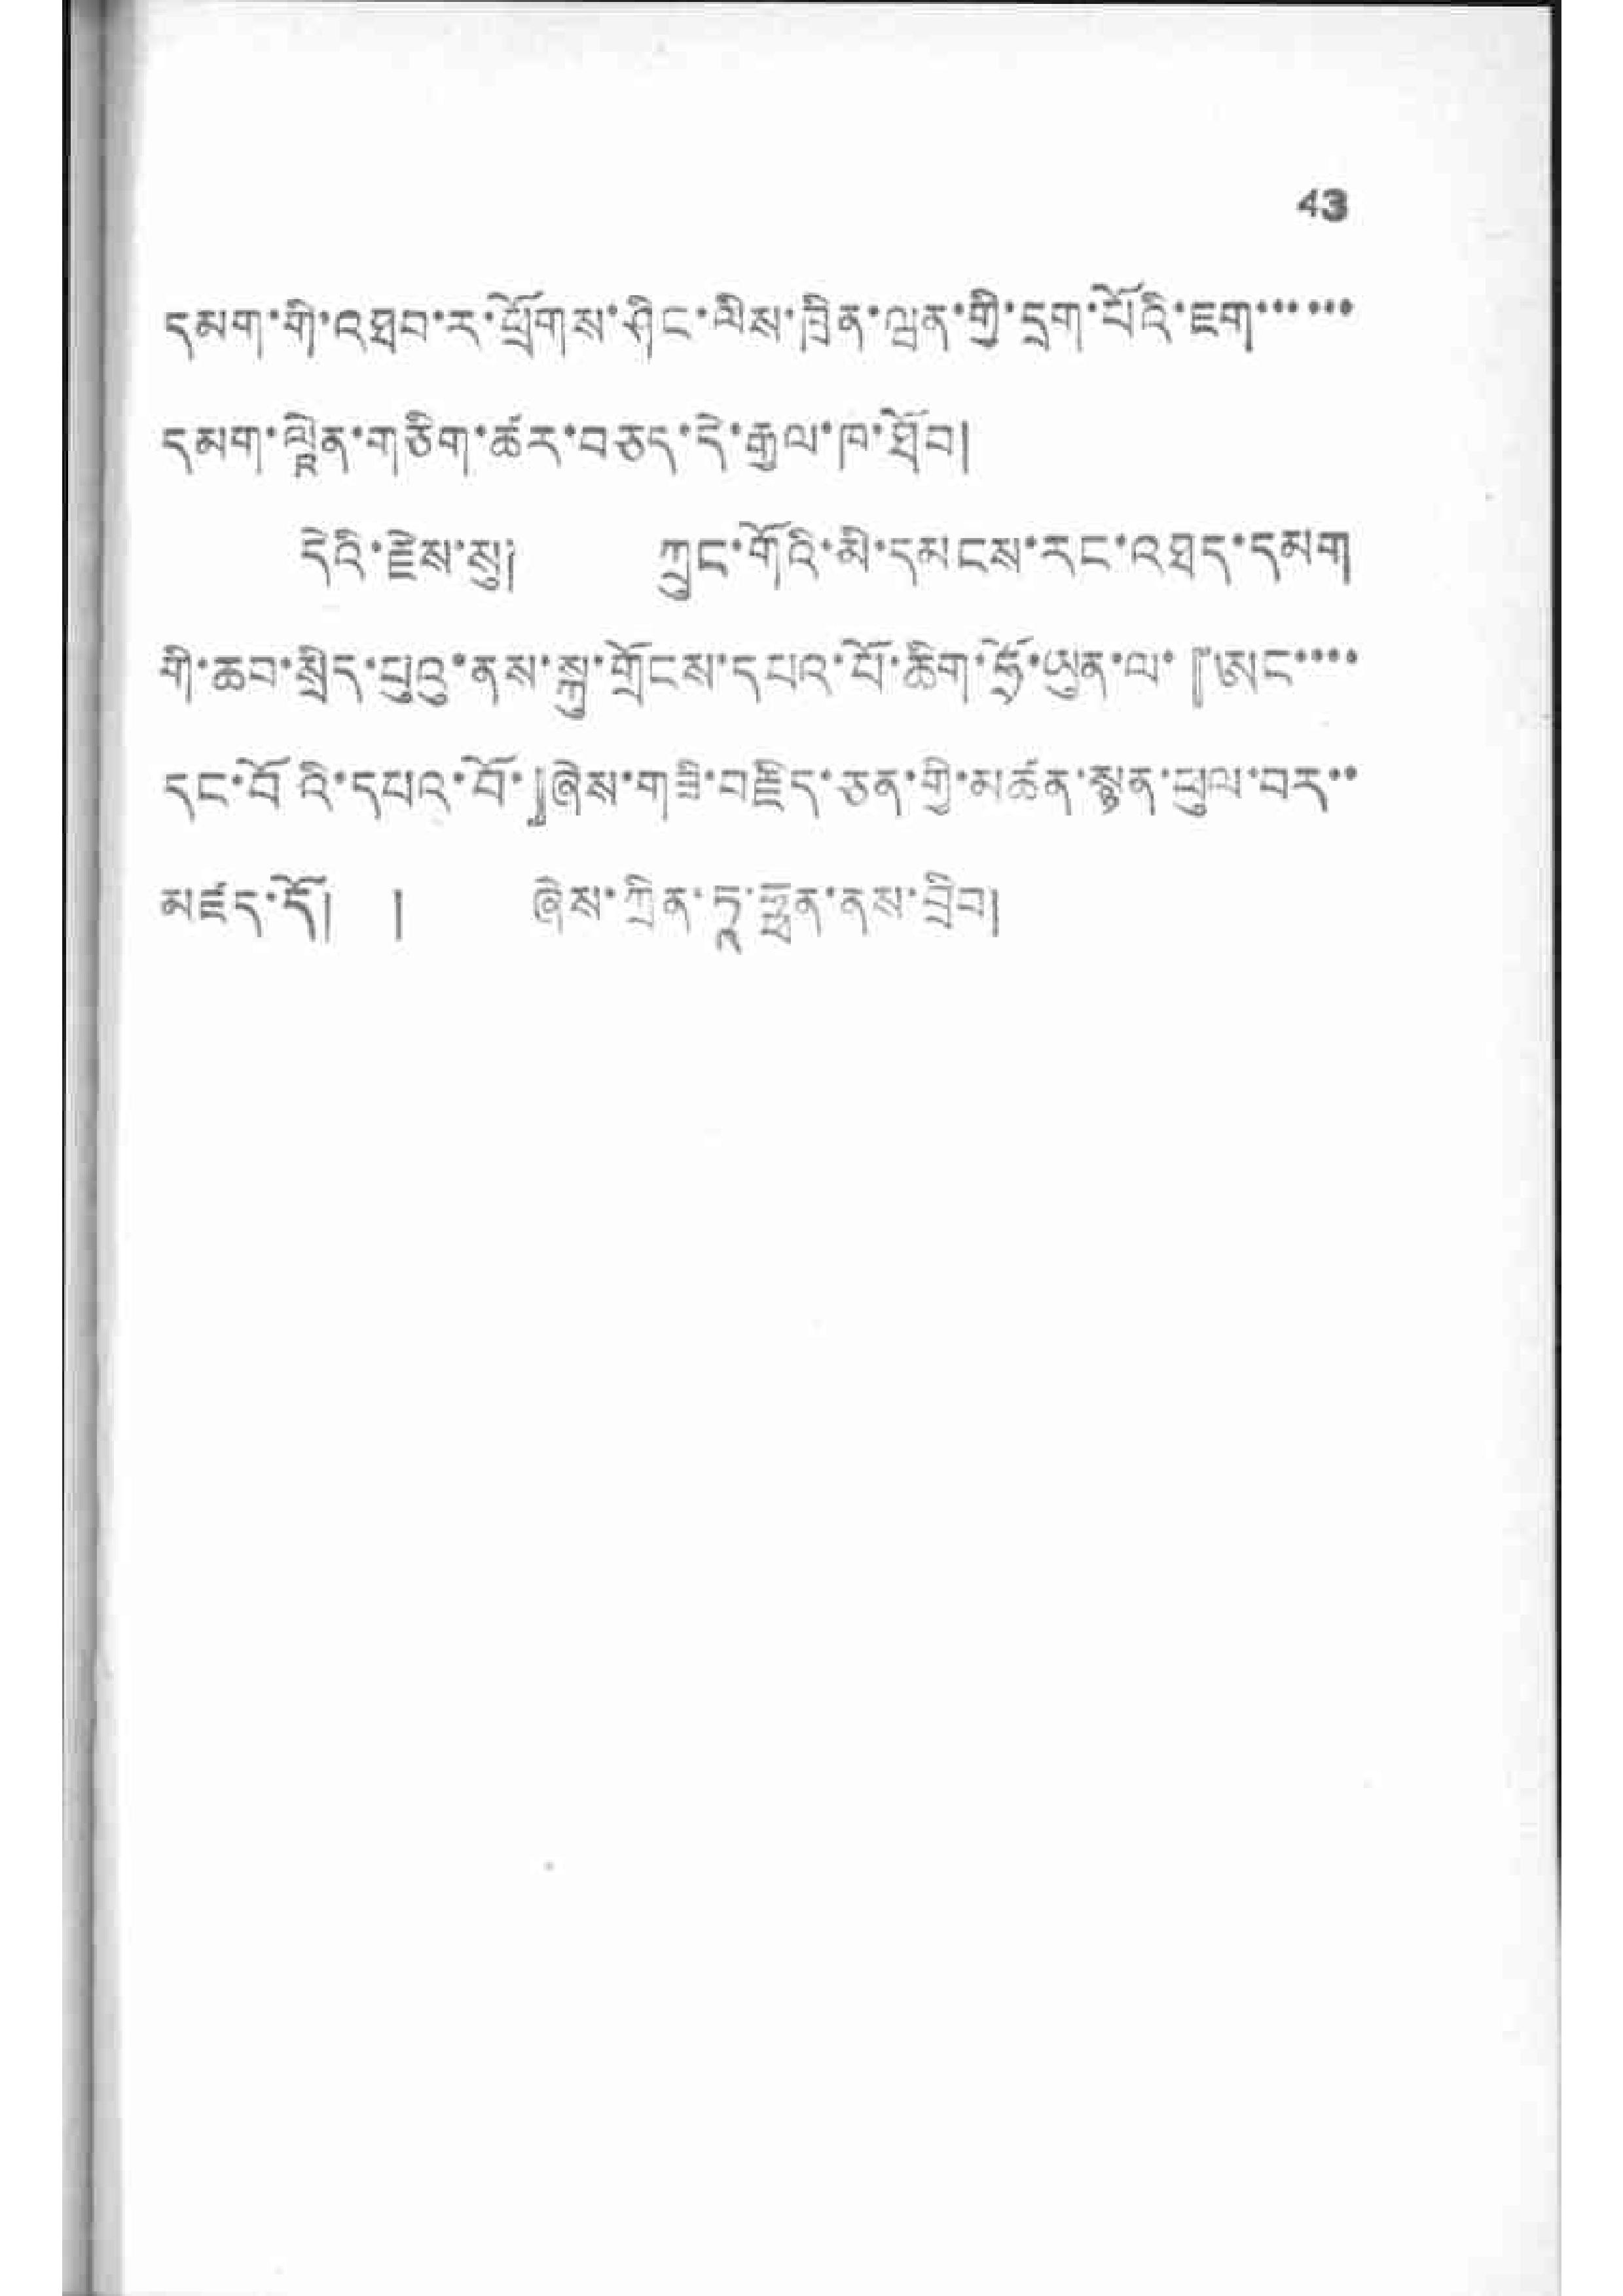43
དམག་ག་འཐབ་ར་ཕྲོགས་ཤིང་ལིས་ཁྲིན་ཝན་གྱི་དྲག་པོའི་ཇག་་་་་་
དམག་ལཱེན་གཅིག་ཚར་བཅད་དེ་རྒྱལ་ཁ་ཐོབ།
དོའི་རྗེས་སུ། ཀྲུང་གོའི་མི་དམངས་རང་འཐད་དམག
གི་ཆབ་སྲིད་པུའུ་ནས་སྐུ་གྲོངས་དཔའ་པོ་ཆིག་ཧྲོ་ཡུན་ལ་『ཨང་་་་
དང་བོའི་དཔའ་བོ་』ཞེས་གཟི་བརྗིད་ཅན་གྱི་མཚན་སྙན་ཕུལ་བར་་
མཛད་དོ། ། ཞེས་ཀྲིན་ཏཱ་ཧྥན་ནས་བྲིབ།
